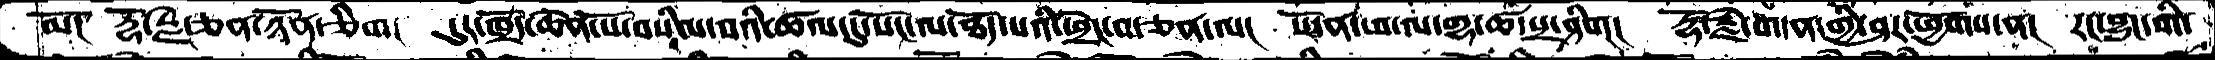མོ།  རྡོ་རྗེ་ཅན་ཉོན་ཅིག།  དུར་ཁྲོད་ཆེན་པོ་བསིལ་བའི་ཚལ་དུ་སོང་ལ་ཐོད་པའི་ཕྲེང་བ་ཅན་ལ།  སོ་ན་ཕ་ལ་གྷ་ཚ་པྲ་ཤིག།  རྡོ་རྗེ་གདན་གྱི་ཤར་ཕྱོགས་ན།  རང་བྱུང་གི་
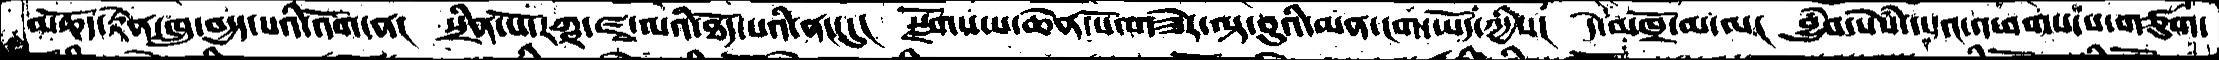མཆོད་རྟེན་ཁྲུ་བདྱད་པའི་འོག་ན།  སྲིན་པོ་རཀྵ་ཛྭ་ལའི་ཐོད་པའི་ནང་དུ།  སྫོགས་པ་ཆེན་པོ་གཟེར་ལྟ་བུའི་མན་ངག་ཡོད་ཀྱིས།  དེ་མཁྲོ་མ་ལ།  བྱུཾབ་སེཾས་དཔའ་འཕགས་པ་གཙུག་
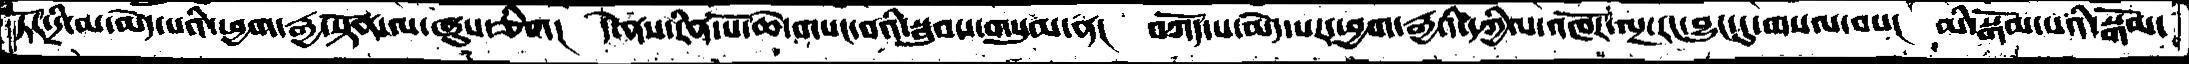ཏོར་དྲི་མ་མེད་པའི་ཕྱག་རྒྱ་སྟོན་ལ་ཞུས་ཅིག།  དེ་ནས་རིན་པོ་ཆེ་གསང་བའི་སྦུབས་གསུམ་ན།  བཀོད་པ་མེད་པར་ཕྱག་རྒྱའི་དཀྱིལ་འཁོར་ལྔ་རང་བྱུང་དུ་གསལ་བས།  མི་སྒོམ་པའི་སྒོམ་
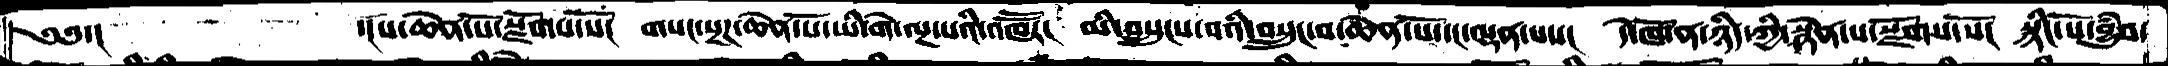༄༅་།     ་།པ་ཆེན་པོ་སྫོགས་སོ།   གསང་སྔཌ་ཆེན་པོ་ཡི་གེ་ལྔ་པའི་འཁཽར།  མི་བསྲུངས་བའི་བསྲུང་བ་ཆེན་པོ་དང་ལྡན་པས།  དེ་ཁོ་ན་ཉིད་ཀྱི་སྙེན་པ་སྫོགས་སོ།  སྙིང་པོ་བྱུཾབ་
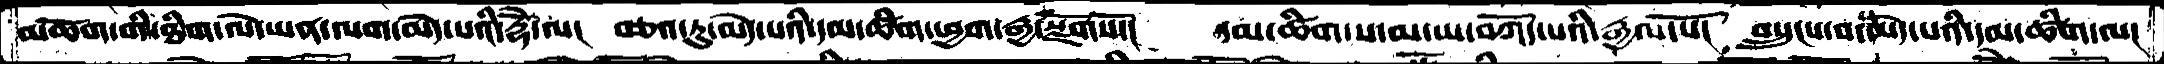མཆོག་གི་ཐིག་ལེ་ཡན་ལག་མེད་པའི་རྡོེ་ལ་།  བཅའ་ཏུ་མེད་པའི་དམ་ཚིག་ཕྱག་རྒྱ་སྫོགསོ་།  དམ་ཚིག་ས་མ་ཡ་བཀོད་པའི་རྒྱལ་པོ།  བསྲུངས་བ་མེད་པའི་དམ་ཚིག་ལ།
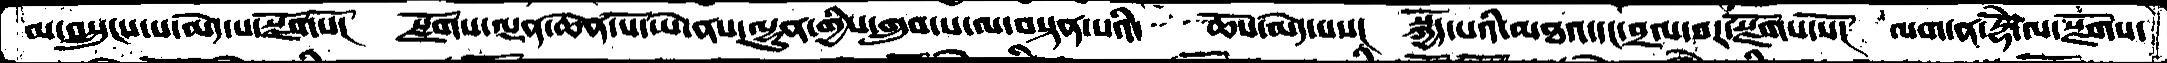མ་བསྲུངས་པ་མེད་པ་སྫོགསོ།  སྫོགས་ལྡན་ཆེན་པོ་ཡེ་ནས་ལྷུན་གྱིས་གྲུབ་པ་ལ་བསྟན་པའི་  ཆོས་མེད་པས་།  སྐྱོད་པའི་མཐའ་དང་བྲལ་བར་སྫོགས་སོ།  ལག་ན་རྡོེ་ལ་སྫོགས་
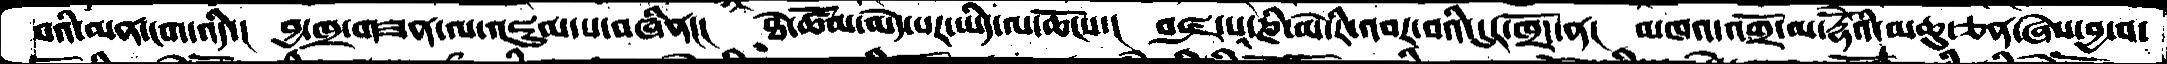བའི་མན་ངག་འདི་།  བྱ་ཁྲ་གཟན་ལ་འཇུམ་པ་བཞིན།།།  ཐེ་ཚོམ་མེད་པར་ཡིད་ལ་ཆོངས་།  བཛྲ་པཱ་ཎི་མེ་རི་འབར་བའི་དུར་ཁྲོད་ན་།  མཁའ་འགྲོ་མ་རྡོེའི་མཆུ་ཅན་ཞེས་བྱ་བ་
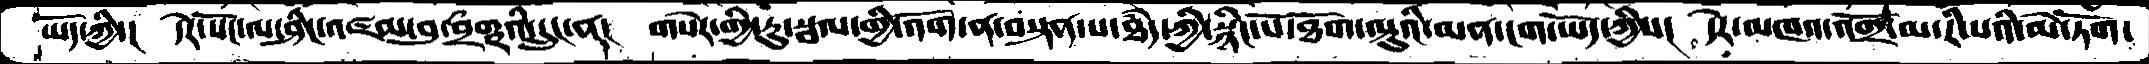ཡོད་ཀྱི་།  དེར་སོང་ལ་ཤིང་འཛམ་བུ་བྲྀགྵའི་དྲུང་ན།  གསེར་གྱི་རུ་སྦལ་གྱི་འོག་ན་བསྟན་པ་ཐཾད་ཀྱི་སྙིང་པོ་ཐོག་ལྟུའི་མན་ངག་ཡོད་ཀྱིས་།  དེར་མཁའ་འགྲོ་མ་རི་པའི་མེ་ཏོག་
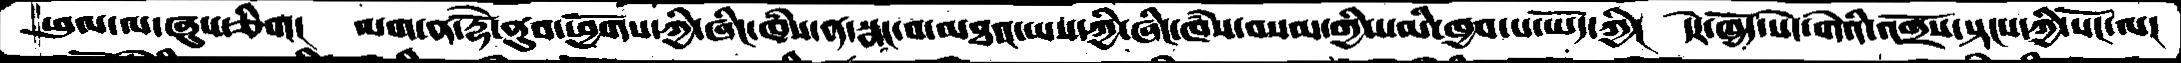ཕུལ་ལ་ཞུས་ཅིག།  ལག་ན་རྡོེ་ནུབ་ཕྱོགས་ཀྱི་ཞིང་ཁཾས་ན་སྣང་བ་མཐའ་ཡས་ཀྱི་ཞིང་ཁཾས་བསམ་གྱིས་མི་ཁྱབ་པ་ཡོད་ཀྱི།  དེར་ཁྱོད་སེང་གེའི་འགྲོས་སྟངས་ཀྱི་སོང་ལ།
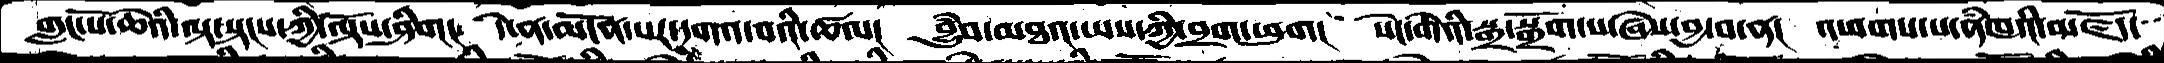གླང་པོ་ཆེའི་ལྟ་སྟངས་ཀྱི་ལྟོས་ཤིག།  དེ་ན་མངོན་པར་དགའ་བའི་ཚལ།  བྱུཾབ་མཐའ་ཡས་ཀྱི་བྲག་ཕུག།  སེང་གེའི་སྒྲ་སྒྲོག་པ་ཞེས་བྱ་བ་ན།  འཕགས་པ་ནཾཁའི་མཛོད་
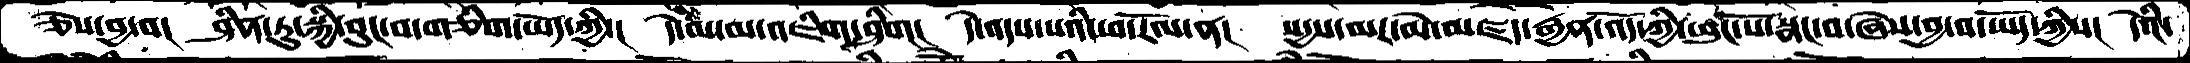ཅེས་བྱ་བ།  ཤིན་ཏུ་སྐྱི་བུང་བ་གཅིག་ཡོད་ཀྱི་།  དེ་མ་མ་འཇིག་ཤིག།   དེ་འདས་པའི་ཕ་རོལ་ན།  སདྱས་མར་མེ་མཛད་རྒྱན་འོད་ཀྱི་ཕུང་པོ་སྣང་བ་ཞེས་བྱ་བ་ཡོད་ཀྱིས།  དེའི་
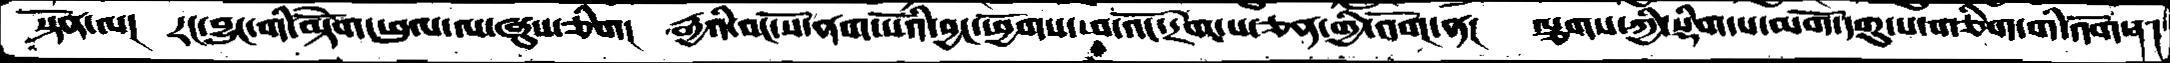སྟོན་ལ།  རང་བྱུང་གི་མྟེོག་ཕུལ་ལ་ཞུས་ཅིག།  རྒྱའི་བང་སོ་ནག་པོའི་བྱང་ཕྱོགས་ཕ་འོང་དྲེག་པ་ཅན་གྱི་འོག་ན།  ལྕགས་ཀྱི་སྡིག་པ་མགོ་དགུ་པ་གཅིག་གི་འོག་ན།
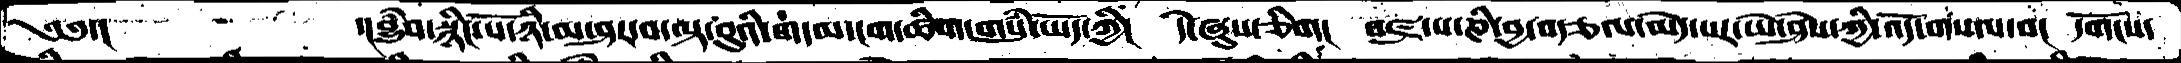༅༅་།     ་།བྱུཾབ་སྙིང་པོ་ཉི་མ་ཤར་བ་ལྟ་བུའི་གདམ་ངག་ཚིག་གསུཾ་ཡོད་ཀྱི།  དེ་ཞུས་ཅིག།  བཛྲ་པ་ཎི་བྱ་བརྩལ་མེད་པར་ཡེ་ཤེས་ཀྱི་འདོ་གསལ་བ།  དགོངས་
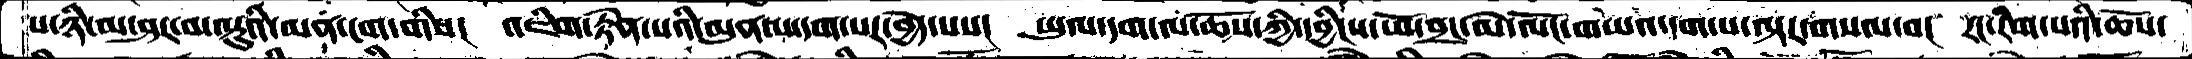པ་ཉི་མ་ཤར་བ་ལྟུའི་མན་ངག་གིས།  འཇིག་རྟེན་པའི་མུན་པ་དག་པར་བྱེད་པས།  ཡུལ་དག་ལ་ཆོས་ཀྱི་དབྱིངས་ཕོ་བྲང་མེ་ལོང་གཡའ་དག་པ་ལྟར་གསལ་བ།  རང་རིག་པའི་ཆོས་
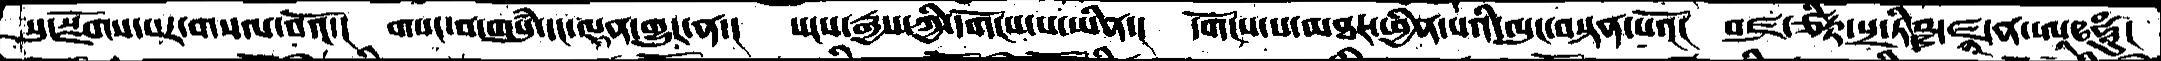སུ་སྫོགས་པར་གསལ་བའོ་།  གསང་བ་གསུཾ་དང་ལྡན་གྱུར་ན་།  སངས་རྒྱས་ཀྱི་དགོངས་པ་ཡིན་།  དགོངས་པ་མཐར་ཕྱིན་པའི་ལུང་བསྟན་པའོ།  བཛྲ་ཙིཏྟ་སྲ་ཏིཥྛ་ཛྙཱ་ན་ཨཱཿཧཱུྂ།
